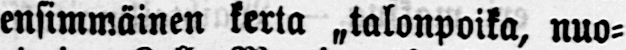ensimmäinen kerta „talonpoika, nuo-
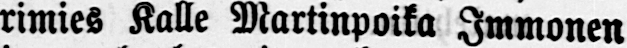rimies Kalle Martinpoika Immonen
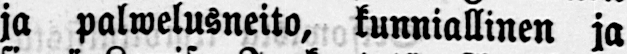ja palwelusneito, kunniallinen ja
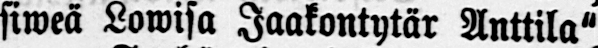siweä Lowisa Jaakontytär Anttila"
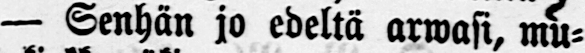— Senhän jo edeltä anwasi, mu-
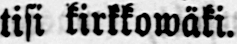tisi kirkkowäki.
